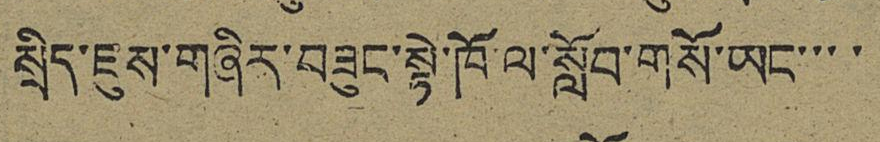སྲིད་ཇུས་གཞིར་བཟུང་སྟེ་ཁོ་ལ་སློབ་གསོ་ཡང་་་་
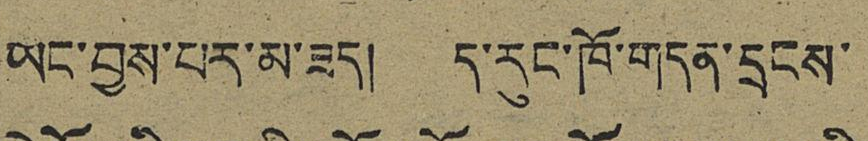ཡང་བྱས་པར་མ་ཟད། ད་རུང་ཁོ་གདན་དྲངས་
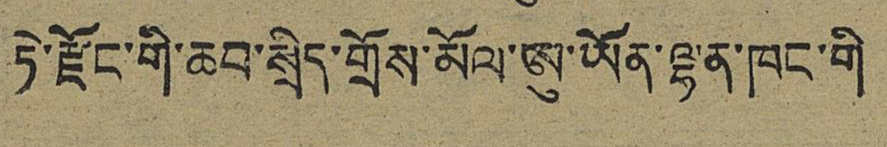ཏེ་རྫོང་གི་ཆབ་སྲིད་གྲོས་མོལ་ཨུ་ཡོན་ལྷན་ཁང་གི
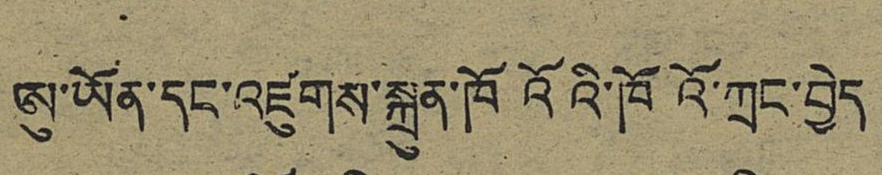ཨུ་ཡོན་དང་འཛུགས་སྐྲུན་ཁོའོའི་ཁོའོ་ཀྲང་བྱེད
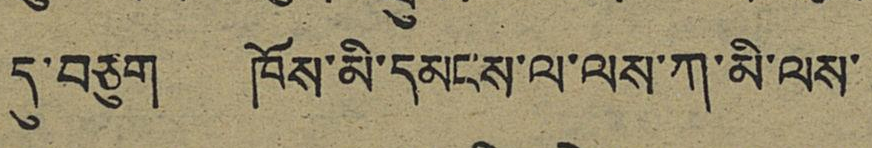དུ་བཅུག ཁོས་མི་དམངས་ལ་ལས་ཀ་མི་ལས་
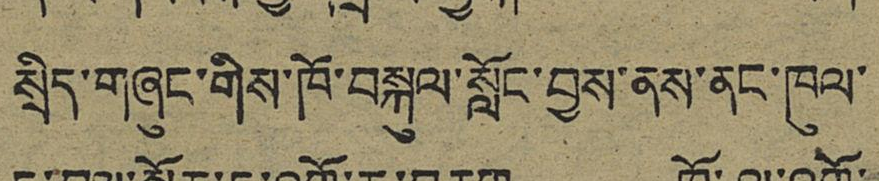སྲིད་གཞུང་གིས་ཁོ་བསྐུལ་སློང་བྱས་ནས་ནང་ཁུལ་
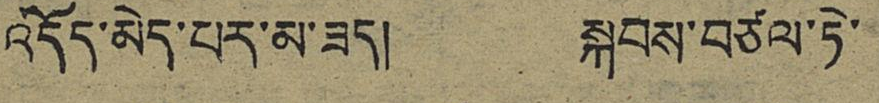འདོད་མེད་པར་མ་ཟད། སྐབས་བཙལ་ཏེ་
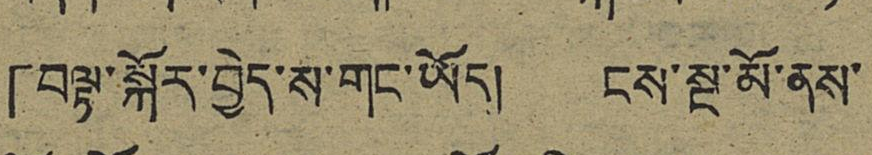「བལྟ་སྐོར་བྱེད་ས་གང་ཡོད། ངས་སྔ་མོ་ནས་
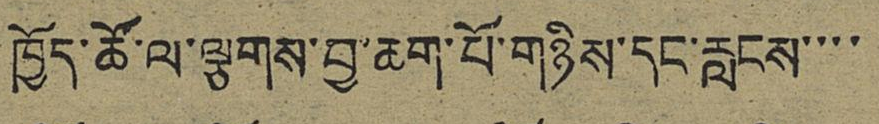ཁྱོད་ཚོ་ལ་ལྕགས་བྱ་ཆག་པོ་གཉིས་དང་རླངས་་་་
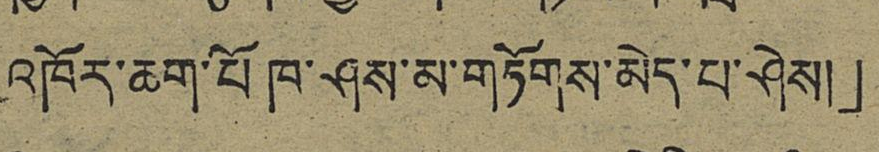འཁོར་ཆག་པོ་ཁ་ཤས་མ་གཏོགས་མེད་པ་ཤེས།」
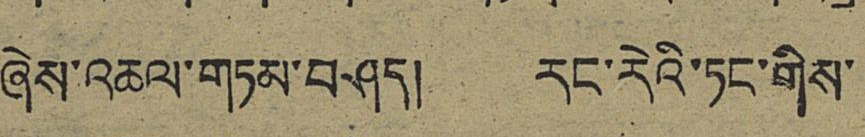ཞེས་འཆལ་གཏམ་བཤད། རང་རེའི་ཏང་གིས་
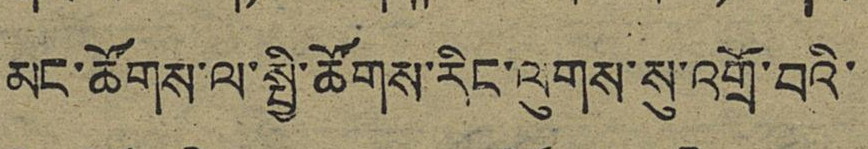མང་ཚོགས་ལ་སྤྱི་ཚོགས་རིང་ལུགས་སུ་འགྲོ་བའི་
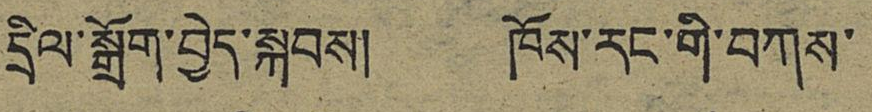དྲིལ་སྒྲོག་བྱེད་སྐབས། ཁོས་རང་གི་བཀས་
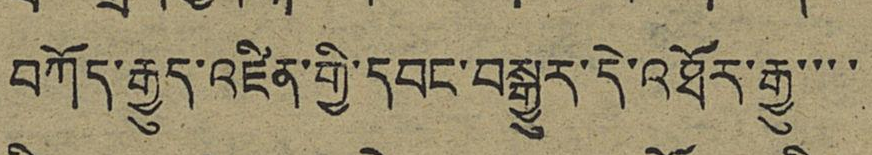བཀོད་རྒྱུད་འཛིན་གྱི་དབང་བསྒྱུར་དེ་འཐོར་རྒྱུ་་་་
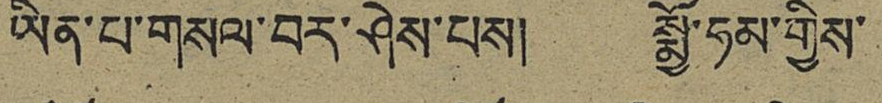ཡིན་པ་གསལ་བར་ཤེས་པས། སྨྱོ་ཧམ་གྱིས་
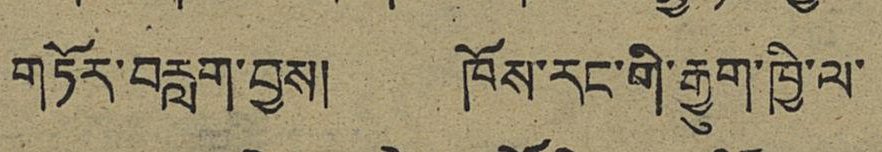གཏོར་བརླག་བྱས། ཁོས་རང་གི་རྒྱུག་ཁྱི་ལ་
